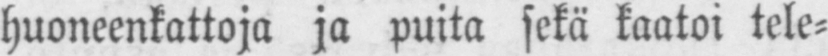huoneenkattoja ja puita sekä kaatoi tele-
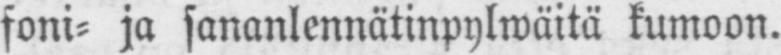foni- ja sananlennätinpylwäitä kumoon.
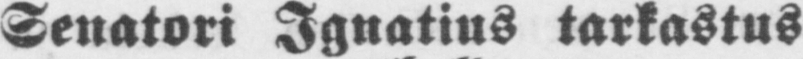Senatori Ignatius tarkastus
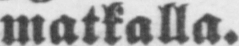matkalla.
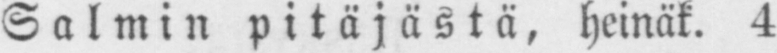Salmin pitäjästä, heinäk. 4
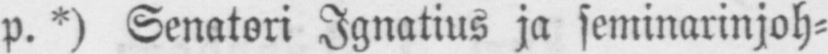p. *) Senatori Ignatius ja seminarinjoh-
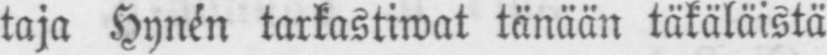taja Hynén tarkastiwat tänään täkäläistä
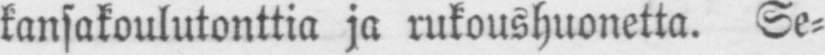kansakoulutonttia ja rukoushuonetta. Se-
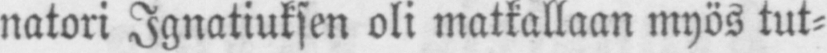natori Ignatiuksen oli matkallaan myös tut-
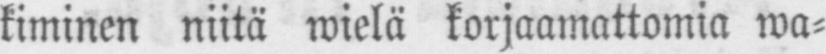kiminen niitä wielä korjaamattomia wa-
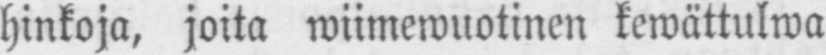hinkoja, joita wiimewuotinen kewättulwa
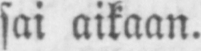sai aikaan.
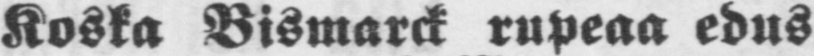Koska Bismarck rupeaa edus-
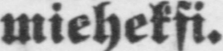mieheksi.
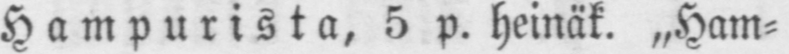Hampurista, 5 p. heinät. ˶Ham-
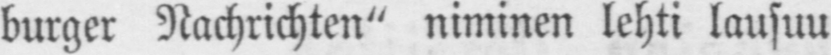burger Nachrichten" niminen lehti lausuu
